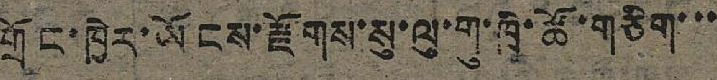གྲོང་ཁྱེར་ཡོངས་རྫོགས་སུ་ལུ་གུ་ཁྲི་ཚོ་གཅིག་་་
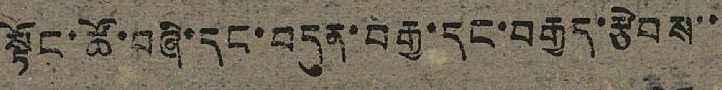སྟོང་ཚོ་བཞི་དང་བདུན་བརྒྱ་དང་བརྒྱད་རྩེབས་་
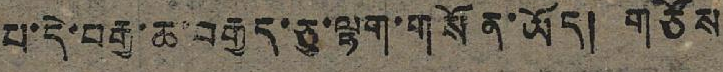པ་དེ་བརྒྱ་ཆ་བརྒྱད་ཅུ་ལྷག་གསོན་ཡོད། གཙོས
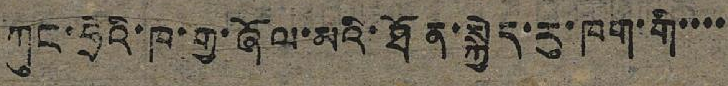ཀུང་ཧྲེའི་ཁ་གྱ་ཞོལ་མའི་ཐོན་སྐྱེད་རུ་ཁག་གི་་་་
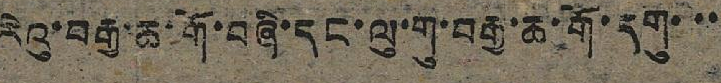རེའུ་བརྒྱ་ཆ་གོ་བཞི་དང་ལུ་གུ་བརྒྱ་ཆ་གོ་དགུ་་་
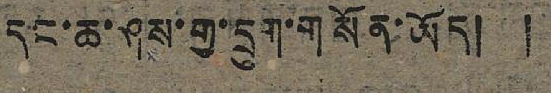དང་ཆ་ཤས་གྱ་དྲུག་གསོན་ཡོད། །
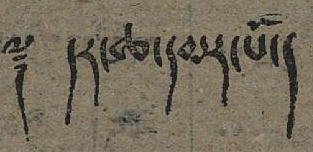༈ དར་ཚ་དམར་པོ།
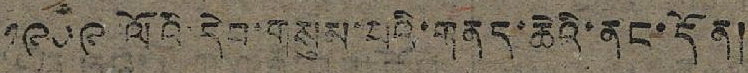༡༩༥༩ ལོའི་དེབ་གསུམ་པའི་གནད་ཆེའི་ནང་དོན།
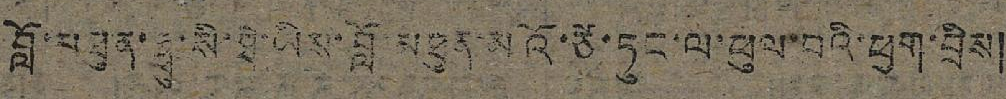བློ་བཐུན་གྲུ་སི་ཐེ་ཡིས་བློ་མཐུན་མའོ་ཙེ་ཏུང་ལ་ཕུལ་བའི་ཕྱག་བྲིས།
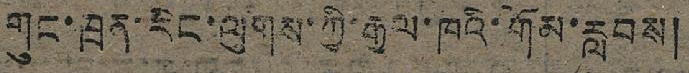གུང་ཁྲན་རིང་ལུགས་ཀྱི་རྒྱལ་ཁའི་གོམ་རླབས།
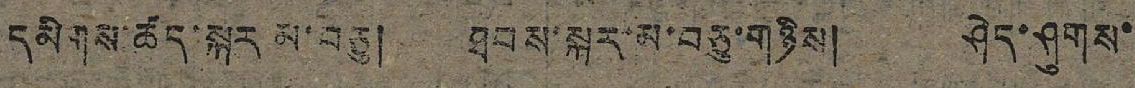དམིགས་ཚད་སྐར མ་བཅུ། ཐབས་སྐར་མ་བཅུ་གཉིས། ཤེད་ཤུགས་
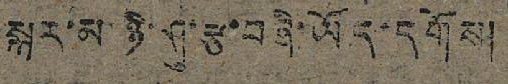སྐར་མ་ཉི་ཤུ་རྩ་བཞི་ཡོད་དགོས།
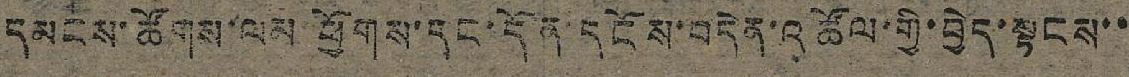དམངས་ཚོགས་ལམ་ཕྱོགས་དང་དོན་དངོས་བདེན་འཚོལ་གྱི་བྱེད་སྟངས་་
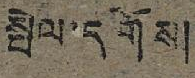སྤེལ་དགོས།
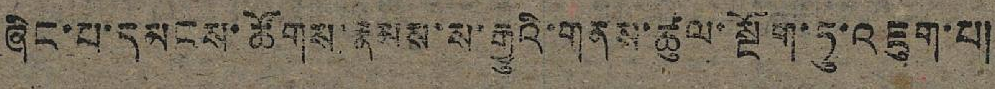ཞིང་པ་དམངས་ཚོགས་རྣམས་ས་རྒྱུའི་གནས་ཚུལ་སྔོག་ཏུ་འཇུག་པ།
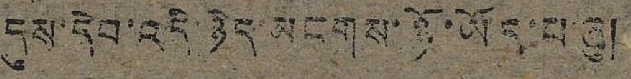དུས་དེབ་འདི་ཉིད་མངགས་ཉོ་ཡོད་པ་ཞུ།
